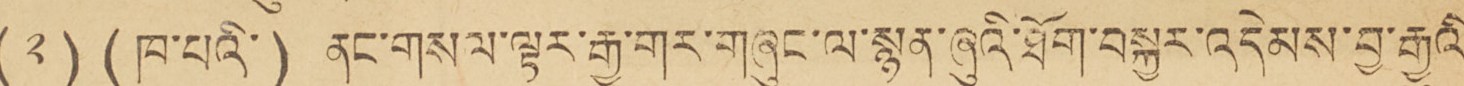(༢) (ཁ་པའི་) ནང་གསལ་ལྟར་རྒྱ་གར་གཞུང་ལ་སྙན་ཞུའི་ཐོག་བསྐྱར་འདེམས་བྱ་རྒྱུའི་
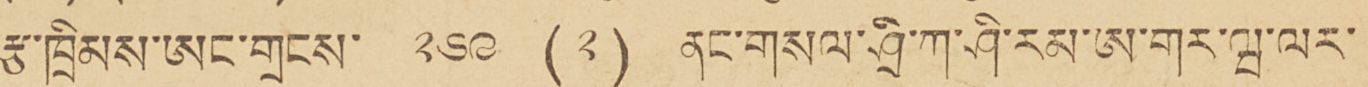རྩ་ཁྲིམས་ཨང་གྲངས་ ༢༦༩ (༢) ནང་གསལ་ཤྲི་ཀ་ཤི་རམ་ཨ་གར་ཝ་ལར་
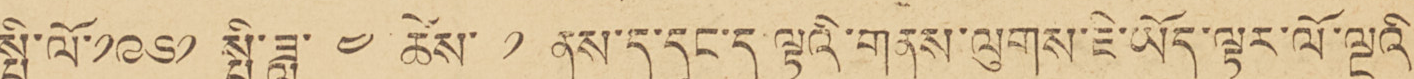སྤྱི་ལོ་ ༡༩༦༢ སྤྱི་ཟླ་ ༤ ཚེས་ ༡ ནང་ད་དུང་ད ལྟའི་གནས་ལུགས་ཇི་ཡོད་ལྟར་ལོ་ལྔའི
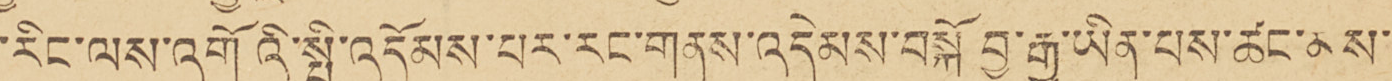་རིང་ལས་འགོའི་སྤྱི་འདོམས་པར་རང་གནས་འདེམས་བསྐོ བྱ་རྒྱུ་ཡིན་པས་ཚང་མས་
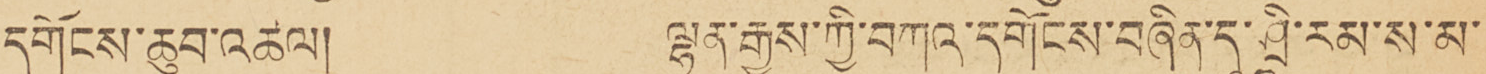དགོངས་ཆུབ་འཚལ། ལྷན་རྒྱས་ཀྱི་བཀའ་དགོངས་བཞིན་དུ་ཤྲཱི་རམ་ས་མ་
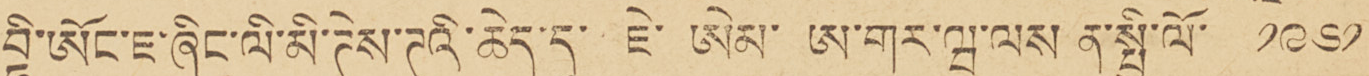བྷི་ཨོང་ཇ་ཞིང་ལི་མི་ཊེས་ཊའི་ཆེད་དུ་ ཇེ་ ཨེམ་ ཨ་གར་ཝ་ལས ན་སྤྱི་ལོ་ ༡༩༦༡
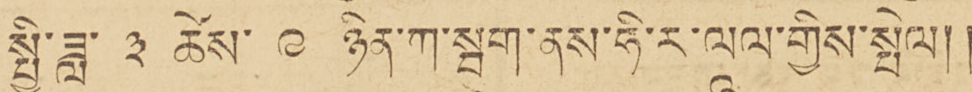སྤྱི་ཟླ་ ༣ ཚེས་ ༩ ཉིན་ཀ་སྦུག་ནས་ཧི་ར་ལཱལ་གྱིས་སྤེལ།།
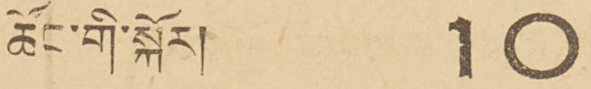ཚོང་གི་སྐོར། 10
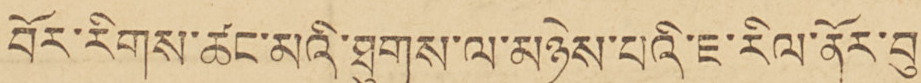བོར་རིགས་ཚང་མའི་ཐུགས་ལ་མཉེས་པའི་ཇ་རིལ་ནོར་བུ་
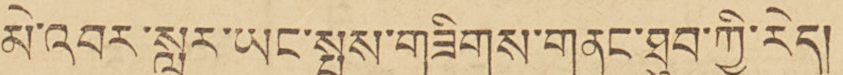མེ་འབར་སླར་ཡང་སྤས་གཟིགས་གནང་ཐུབ་ཀྱི་རེད།
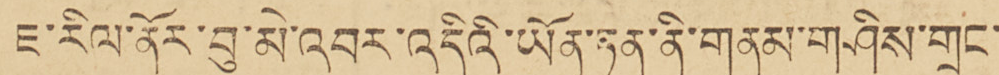ཇ་རིལ་ནོར་བུ་མེ་འབར་འདིའི་ཡོན་ཏན་ནི་གནམ་གཤིས་གྲང་
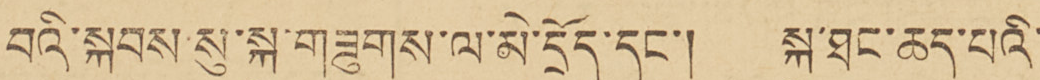བའི་སྐབས་སུ་སྐུ་གཟུགས་ལ་མེ་གྲོད་དང་། སྐུ་ཐང་ཆད་པའི་
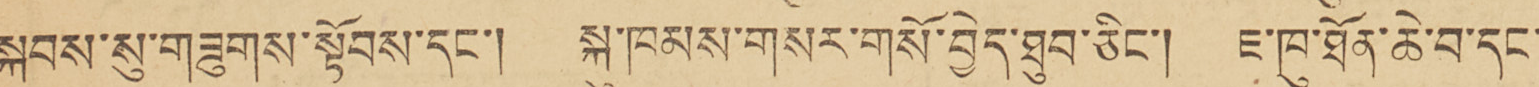སྐབས་སུ་གཟུགས་སྟོབས་དང་། སྐུ་ཁམས་གསར་གསོ་བྱེད་ཐུབ་ཅིང་། ཇ་ཁུ་ཐོན་ཆེ་བ་དང་
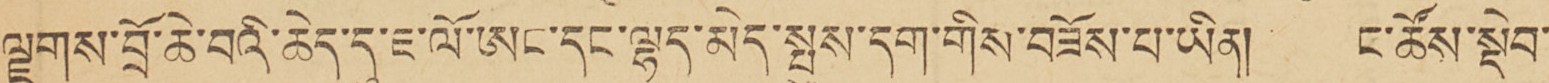ལྗགས་བྲོ་ཆེ་བའི་ཆེད་དུ་ཇ་ལོ་ཨང་དང་ལྷད་མེད་སྤུས་དག་གིས་བཟོས་པ་ཡིན། ང་ཚོས་སྡེབ་
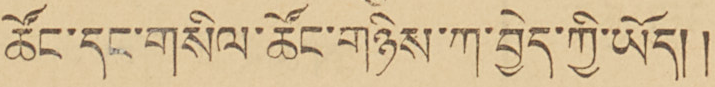ཚོང་དང་གསིལ་ཚོང་གཉིས་བྱེད་ཀྱི་ཡོད།།
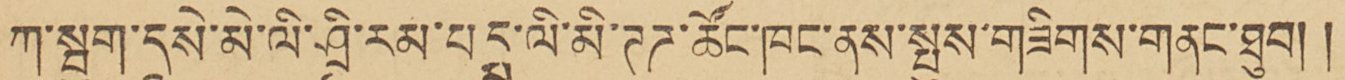ཀ་སྦུག་དཱསེ་མེ་ལི་ཤྲཱི་རམ་པདྨ་ལི་མི་ཊཌ་ཚོང་ཁང་ནས་སྤུག་གཟིགས་གནང་ཐུབ།།
